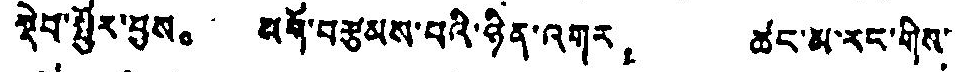སྡེབ་སྦྱོར་བྱས。 མགོ་བརྩམས་པའི་ཉིན་འགར， ཚང་མ་རང་གིས་
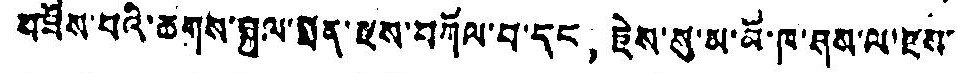མཟོས་པའི་ཆགས་སྐུལ་སྨན་རྫས་བཀོལ་བ་དང， རྗེས་སུ་མ་མོ་ཁ་ཤས་ལ་རྫས་་་
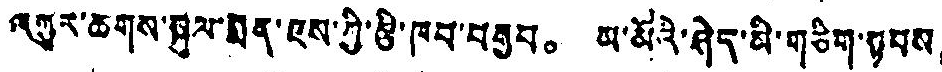འགྱུར་ཆགས་སྐུལ་སྨན་ཇས་ཀྱི་རྩི་ཁབ་བརྒྱབ。 མ་མོའི་ཤེད་མི་གཅིག་སྟབས།
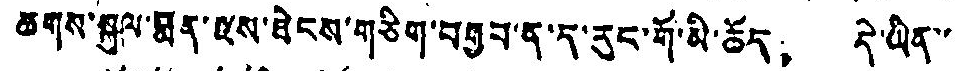ཆགས་སྐུལ་བྨན་ལས་ཐེངས་གཅིག་བརྒྱབ་ན་ད་རུང་གོ་མི་ཆོད， དེ་ཡིན་་་
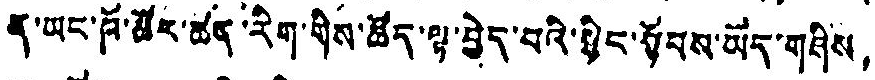ན་ཡང་ཁོ་ཚོར་ཚན་རིག་གིས་ཚོད་ལྟ་བྱེད་པའི་སྙིང་སྟོབས་ཡོད་གཤིས，
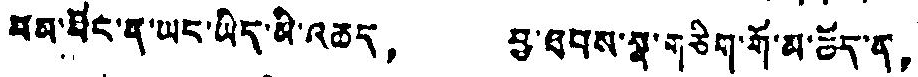ཕམ་བོང་ན་ཡང་ཡིད་མི་འཆད， བྱ་ཐབས་སྣ་གཅིག་གོ་མ་ཚོད་ན，
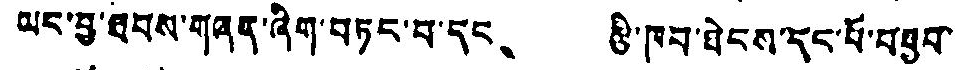ཡང་བྱ་ཐབས་གཞན་ཞིག་བཏང་བ་དང、 རྩི་ཁབ་ཐེངས་དང་པོ་བཐུབ་
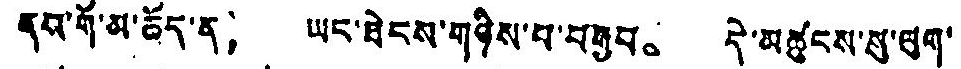ནུབ་གོ་མ་ཆོད་ན， ཡང་ཐེངས་གཉིས་པ་བརྒྱབ。 དེ་མཚུངས་སུ་ལུག་
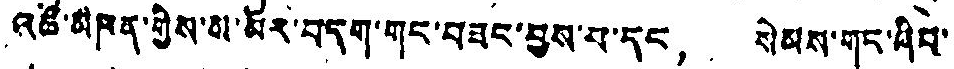འཚོ་མཁན་གྱིས་ས་མོར་བདག་གང་བཟང་བྱས་པ་དང， སེམས་གང་ཞིབ་
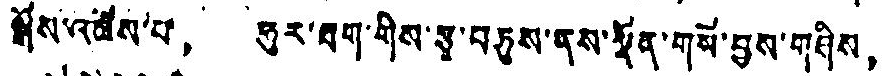སྒོས་འཚོས་པ， ཧུར་ཐག་གིས་རྩྭ་བཏུས་ནས་སྣོན་གསོ་བྱས་གཤིས，
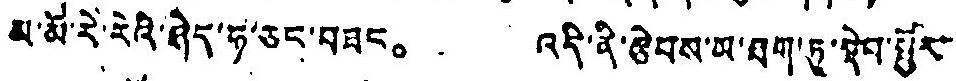མ་མོ་རེ་རེའི་ཤེད་ཧ་ཅང་བཟང。 འདི་ནི་རེབས་ཡ་ཐག་ཏུ་སྡེབ་སྦྱོར་
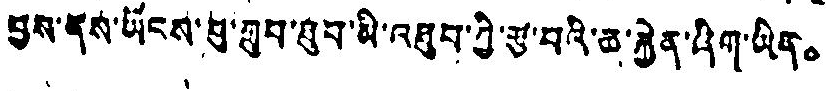བྱས་ནོས་ཡོངས་སུ་གྲུབ་ཐུབ་མི་འཐུབ་ཀྱི་རྩ་བའི་ཆ་རྐྱེན་ཞིག་ཡིན。
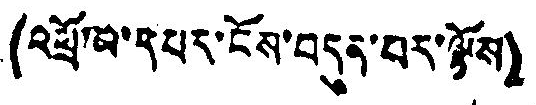(འཕྲོ་མ་དཔར་ངོས་བདུན་པར་ལྟོས)
